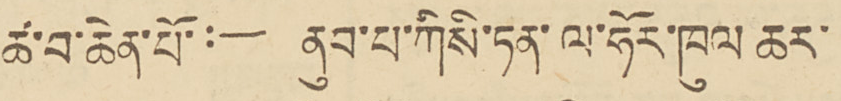ཚ་བ་ཆེན་པོ་:— ནུབ་པ་ཀིསི་ཏན་ལ་ཧོར་ཁུལ ཆར་
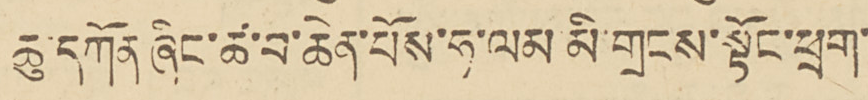ཆུ་དཀོན ཞིང་ཚ་བ་ཆེན་པོས་ཧ་ལམ མི་གྲངས་སྟོང་ཕྲག་
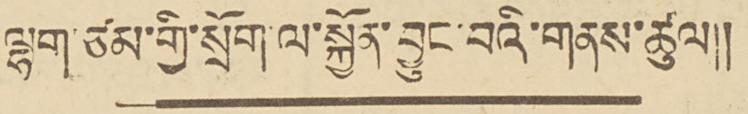ལྷག་ཙམ་གྱི་སྲོག་ལ་སྐྱོན་བྱུང་བའི་གནས་ཚུལ།།
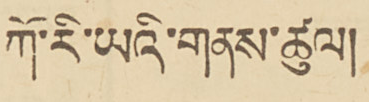ཀོ་རི་ཡའི་གནས་ཚུལ།
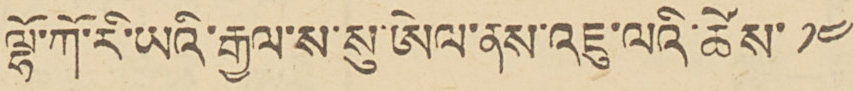ལྷོ་ཀོ་རི་ཡའི་རྒྱལ་ས་སུ་ཨེལ་ནས་ལའི་ཚེས་༡༤
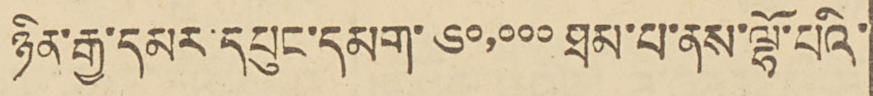ཉིན་རྒྱ་དམར་དཔུང་དམག་ ༦༠,༠༠༠ ཐམ་པ་ནས་ལྷོ་པོའི་
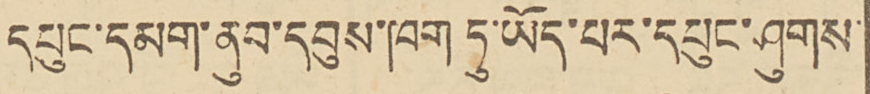དཔུང་དམག་ནུབ་དབུས་ཁག ཏུ་ཡོད་པར་དཔུང་ཤུགས་
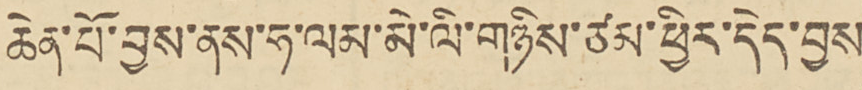ཆེན་པོ་བྱས་ནས་ཧ་ལམ་མི་ཚེ་གཉིས་ཙམ་ཕྱིར་དེད་བྱས་
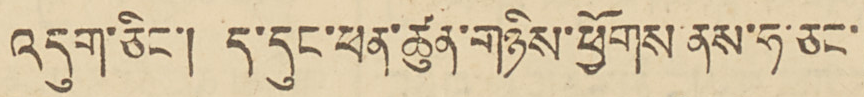འདུག་ཅིང་། ད་དུང་ཕན་ཚུལ་གཉིས་ཕྱོགས་ནས་ཧ་ཅང་
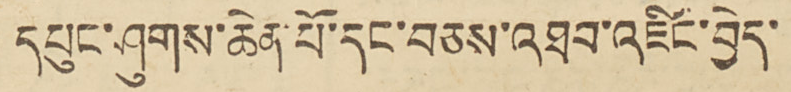དཔུང་ཤུགས་ཆེན་པོ་དང་བཅས་འཐབ་འཛིང་བྱེད་
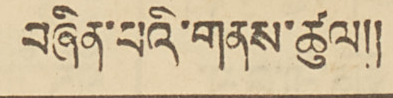བཞིན་པའི་གནས་ཚུལ།།
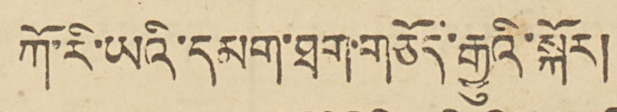ཀོ་རི་ཡའི་དམག་ཐག་གཅོད་རྒྱུའི་སྐོར།
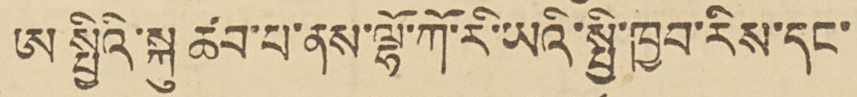ཨ སྤྱིའི་སྐུ ཚབ་པ་ནས་ལྷོ་ཀོ་རི་ཡའི་སྤྱི་ཁྱབ་རིས་དང་
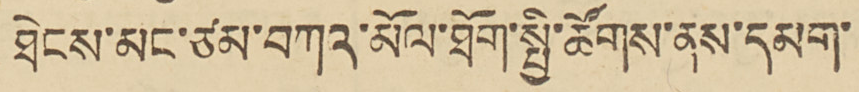ཐེངས་མང་ཙམ་བཀའ་མོལ་ཐོག་སྤྱི་ཚོགས་ནས་དམག་
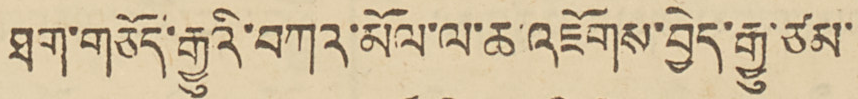ཐག་གཅོད་རྒྱུའི་བཀའ་མོལ་ལ་ཆ་འཇོགས་བྱེད་རྒྱུ་ཙམ་
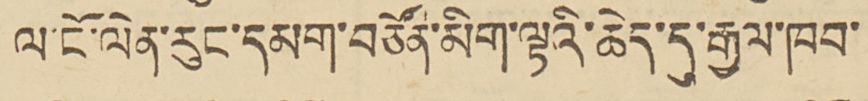ལ་ངོ་ལེན་རུང་དམག་བཙོན་མིག་ལྟའི་ཆེད་དུ་རྒྱལ་ཁབ་
